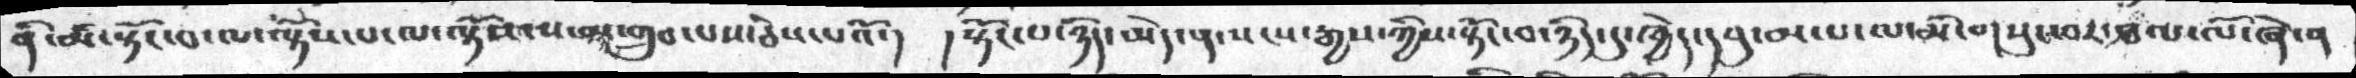ནི་མི་སྟོང་པ་ལ་ལྟོས་པ་ལ་ལྟོས་ས་མ་གྲུབ་པས་ཅེས་པའོ་།   ། སྟོང་པ་ཉིད་མེད་ན་སངས་རྒྱས་ཀྱིས་སྟོང་བ་ཉིད་དུ་ཁྱེད་དབུ་མ་པ་ལ་མི་གསུང་བར་ཐལ་ལོ་ཞེ་ན
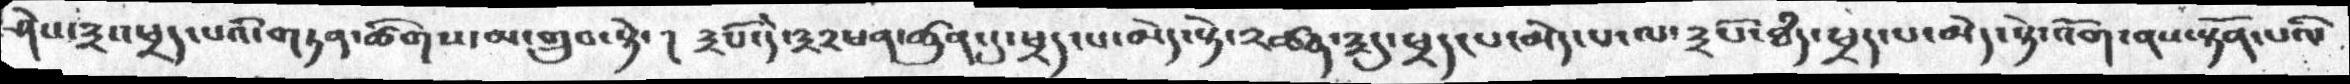ཤེས་༣འཕྲད་པའི་གཏན་ཚིགས་མ་གྲུབ་སྟེ་།  ༣པོ་དེ་༣༢ཕན་ཚུན་དུ་ཕྲད་པ་མེད་སྟེ་༢ཚན་༣དུ་ཕྲད་པ་མེད་པ་ལ་༣པོ་ཐཾད་ཕྲད་པ་མེད་སྟེ་འོག་ནས་སྟོན་པའི་
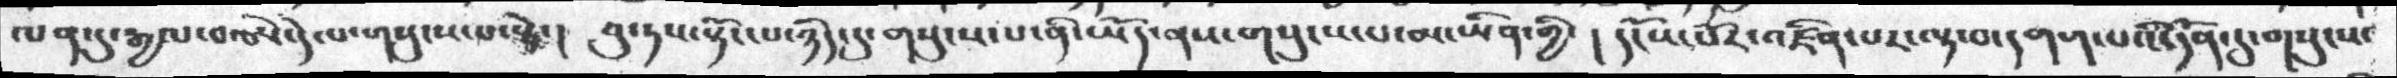ལན་དུ་རྒྱལ་བཨེ་དེ་ལ་གསུངས་པ་ས྄ཏེ་།  བུ་ཏས་སྟོང་པ་ཉིད་དུ་གསུངས་པ་ནི་ཡོད་ནས་གསུངས་པ་མ་ཡིན་གྱི་ །  དངོས་པོར་འཛིན་པར་ལྟ་བ་དགག་པའི་དོན་དུ་གསུངས་
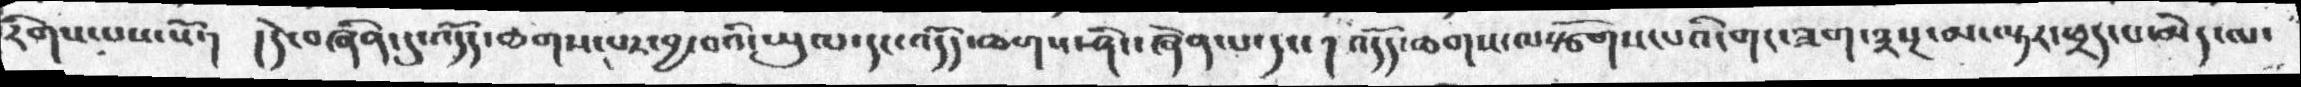རིགས་པས་སོ་། །དེ་བཞིན་དུ་འདོད་ཆགས་པར་བྱ་བའི་ཡུལ་དང་འདོད་ཆགས་ཤིང་ཞེན་པ་དང་། འདོད་ཆགས་ལསྩོགས་པའི་གང་ཟག་༣སྔ་མ་ལྟར་ཕྲད་པ་མེད་ལ་
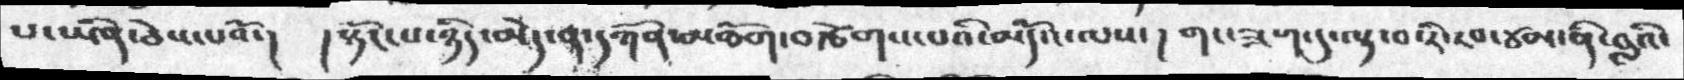པ་ཡིན་ཅེས་པའོ་།  །སྟོང་པ་ཉིད་མེད་ན་དཀོན་མཆོག་བརྩེགས་པའི་མདོའ་ལས་། གང་ཟག་དུ་ལྟ་བ་རི་རབ་ཙམ་ནི་བླའི་
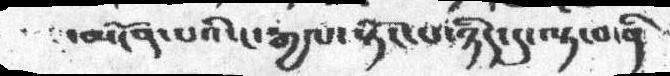་མངོན་པའི་ང་རྒྱལ་སྟོང་པ་ཉིད་དུ་ལྟ་བ་ནི
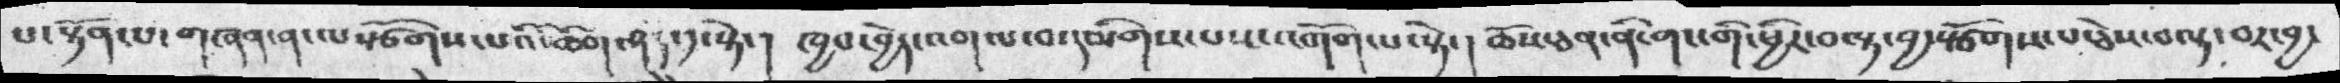པ་སྟོན་པ་གཞན་ན་ལསྩོགས་པའི་ཆོག་ཤད་༡་སྟེ་།  ཁྱབ་བྱེད་འགལ་བ་དམིགས་པས་འགོག་པ་སྟེ་། ཆོས་ཅན་ནི་གང་གི་ཕྱིར་བལྟ་བྱ་སྩོགས་པ་ཅེས་བལྟ་བར་བྱ་
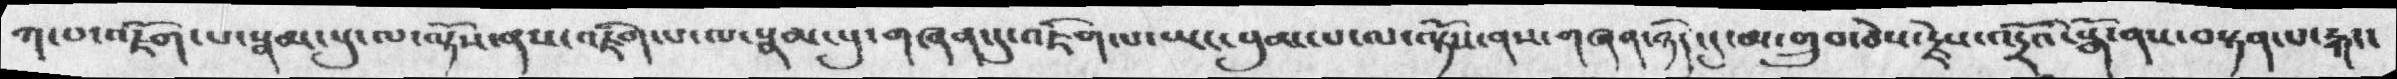ཀ་པ་འཇོག་པ་སྣམ་པུ་ལ་ལྟོས་ནས་འཇིག་པ་ལ་སྣམ་པུ་གཞན་དུ་འཇིག་པ་ཡང་བུམ་པ་ལ་ལྟོས་ནས་གཞན་ཉིད་དུ་མ་གྲུབ་ཅེས་རྗེས་འདྲོའོ་སྒོ་ནས་བསྟན་པ་རྐང་
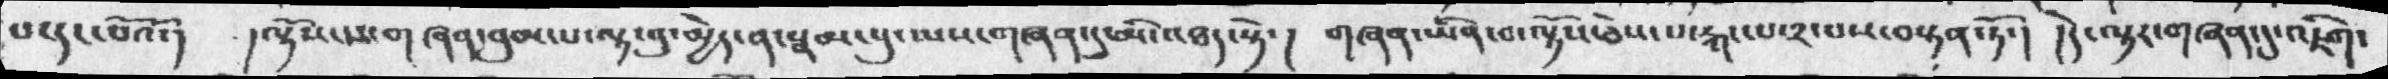པ་དང་པོའོ་།  །ལྟོས་ས་གཞན་བུམ་པ་ལྟ་བུ་མྱེད་ན་སྣམ་པུ་ལས་གཞན་དུ་མི་འཐད་སྟེ་།  གཞན་ཡིན་བ་ལྟོས་ཅེས་པ་རྐང་པ་༢་པས་བསྟན་ཏོ་།  །དེ་ལྟར་གཞན་དུ་འཇིག་
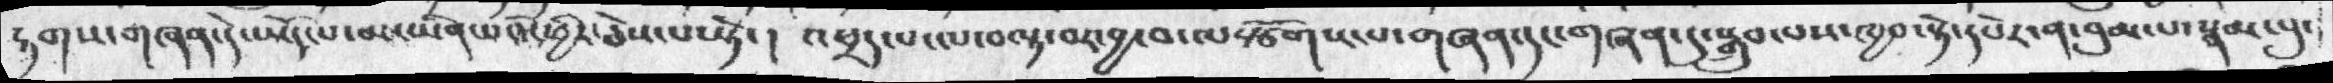རྟགས་གཞན་དེ་ཡོད་པ་མ་ཡིན་པའི་ཕྱིར་ཅེས་པ་སྟེ་།  འཕྲད་པ་ལ་བལྟ་བར་བྱ་བ་ལསྩོགས་པ་གཞན་དང་གཞན་དུ་སྒྲུབ་པས་ཁྱབ་སྟེ་དཔེར་ན་བུམ་པ་སྣམ་པུ་
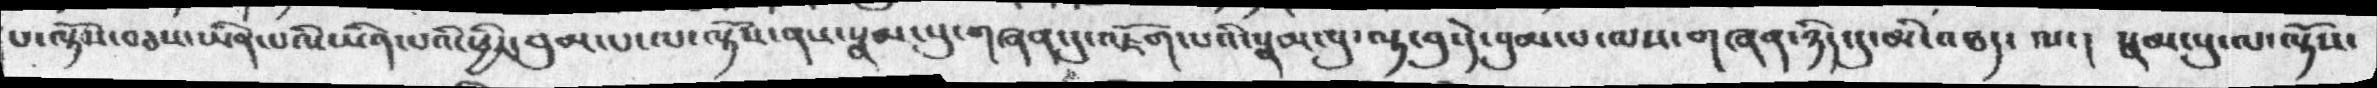པ་ལྟོས་བཅས་ཡིན་པའི་ཡིན་པའི་ཕྱིར་བུམ་པ་ལ་ལྟོས་ནས་སྣམ་པུ་གཞན་དུ་འཇོག་པའི་སྣམ་བུ་ལྟ་བུ་དེ་བུམ་པ་ལས་གཞན་ཉིད་དུ་མི་འཐད་ལ་།  སྣམ་པུ་ལ་ལྟོས་
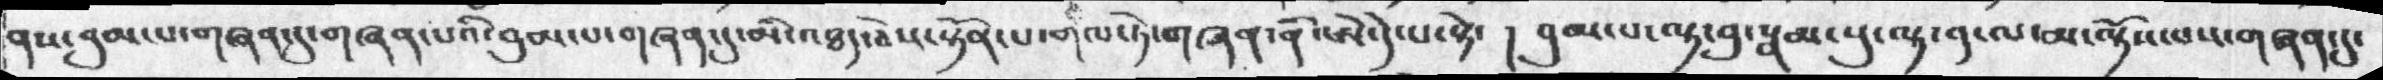ནས་བུམ་པ་གཞན་དུ་གཞན་པའི་བུམ་པ་གཞན་དུ་མི་འཐད་ཅེས་སྟོན་པ་གལ་ཏེ་གཞན་ནི་ཨེ་དེ་པ་སྟེ་། བུམ་པ་ལྟ་བུ་སྣམ་པུ་ལྟ་བུ་ལ་མ་ལྟོས་པས་གཞན་དུ་
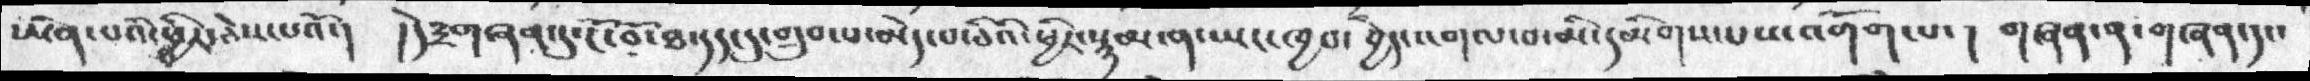ཡིན་པའི་ཕྱིར་ཅེས་པའོ་།  །དེ༣གཞན་དུ་ངོ་བོ་ཐ་དད་དུ་གྲུབ་པ་མེད་པ་ཅིའི་ཕྱིར་སྙམ་ན་ཡང་ཁྱབ་བྱེད་འགལ་བ་མི་དམིགས་པས་འགོག་པ་། གཞན་ན་གཞན་དང་
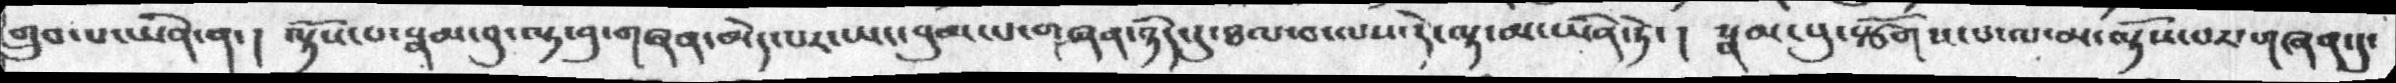གྲུབ་པ་ཡིན་ན་། ལྟོས་པ་སྣམ་བུ་ལྟ་བུ་གཞན་མེད་པར་ཡང་བུམ་པ་གཞན་ཉིད་དུ་ཐལ་བ་ལས་དེ་ལྟ་མ་ཡིན་ཏེ་། སྣམ་པུ་སྩོགས་པ་ལ་མ་ལྟོས་པར་གཞན་དུ་
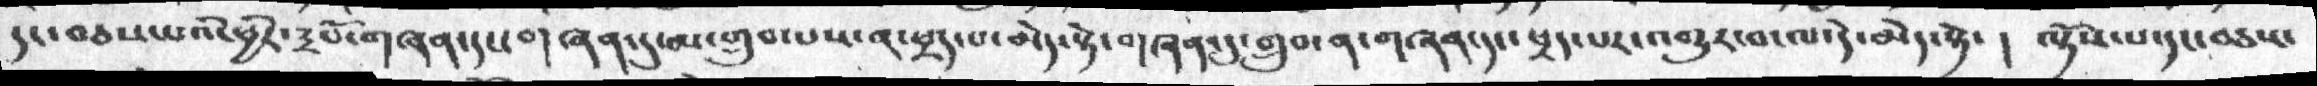དང་བཅས་པའི་ཕྱིར་༣པོ་གཞན་དང་གཞན་དུ་མ་གྲུབ་པས་ན་ཕྲད་པ་མེད་སྟེ་གཞན་དུ་གྲུབ་ན་གཞན་དང་ཕྲད་པར་འགྱུར་བ་ལ་དེ་མེད་སྟེ་། ལྟོསཔ་དང་བཅས་
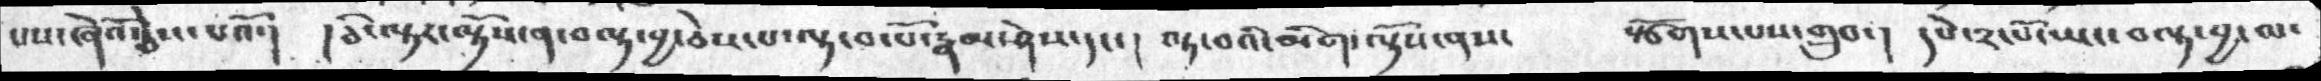པས་ཞེའོ་ཅེས་པའོ་།  །ཅི་ལྟར་ལྟོས་ན་བལྟ་བྱ་ཅེས་པ་ལྟ་བ་པོ་རྣམ་ཤེས་དང་། ལྟ་བའི་མིག་ལྟོས་ནས་    སྩོགས་པས་གྲུབ་།  དཔེ་༢་པོ་ཡང་བལྟ་བྱ་ལ་
